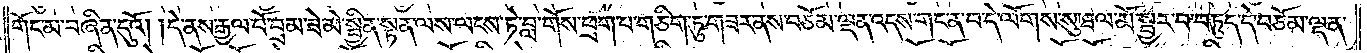གོང་མ་བཞིན་དུའོ། །དེ་ནས་རྒྱལ་པོ་བྲམ་ཟེ་མེ་སྦྱིན་སྟན་ལས་ལངས་ཏེ་བླ་གོས་ཕྲག་པ་གཅིག་ཏུ་གཟར་ནས་བཅོམ་ལྡན་འདས་གང་ན་བ་དེ་ལོགས་སུ་ཐལ་མོ་སྦྱར་བ་བཏུད་དེ་བཅོམ་ལྡ་
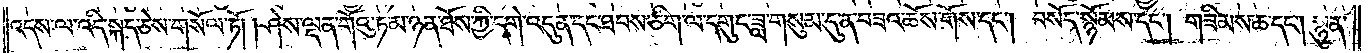འདས་ལ་འདི་སྐད་ཅེས་གསོལ་ཏོ། །ཤེས་ལྡན་གོའུ་ཏ་མ་ཉན་ཐོས་ཀྱི་དགེ་འདུན་དང་ཐབས་ཅིག་ལ་དགུང་ཟླ་གསུམ་དུ་ན་བཟའ་ཆོས་གོས་དང༌། བསོད་སྙོམས་དང༌། གཟིམས་ཆ་དང༌། སྙུན་
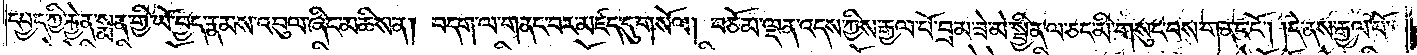དཔྱད་ཀྱི་རྐྱེན་སྨན་གྱི་ཡོ་བྱད་རྣམས་འབུལ་ཞིང་མཆིས་ན། བདག་ལ་གནང་བར་མཛད་དུ་གསོལ། བཅོམ་ལྡན་འདས་ཀྱིས་རྒྱལ་པོ་བྲམ་ཟེ་མེ་སྦྱིན་ལ་ཅང་མི་གསུང་བས་གནང་ངོ༌། །དེ་ནས་རྒྱལ་པོ་
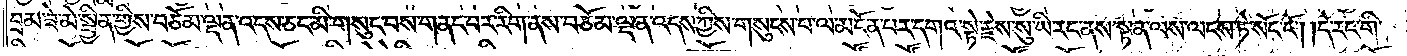བྲམ་ཟེ་མེ་སྦྱིན་གྱིས་བཅོམ་ལྡན་འདས་ཅང་མི་གསུང་བས་གནང་བར་རིག་ནས་བཅོམ་ལྡན་འདས་ཀྱིས་གསུངས་པ་ལ་མངོན་པར་དགའ་སྟེ་རྗེས་སུ་ཡི་རང་ནས་སྟན་ལས་ལངས་ཏེ་སོང་ངོ༌། །དེ་རང་གི་
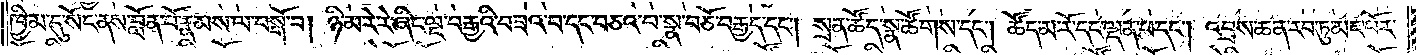ཁྱིམ་དུ་སོང་ནས་བློན་པོ་རྣམས་ལ་བསྒོ་བ། ཉི་མ་རེ་རེ་ཞིང་ལྔ་བརྒྱའི་བཟའ་བ་དང་བཅའ་བ་སྣ་བཅོ་བརྒྱད་དང༌། སྲན་ཚོད་སྣ་ཚོགས་དང༌། ཚོད་མ་རོ་དང་ལྡན་པ་དང༌། འབྲས་ཆན་རབ་ཏུ་མང་པོར་
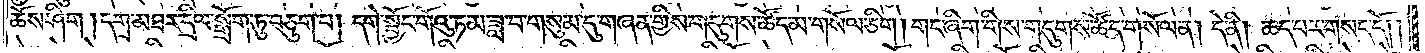ཆོས་ཤིག །དགྲ་མཐར་དྲིལ་སྒྲོག་ཏུ་བཅུག་པ། དགེ་སྦྱོང་གོའུ་ཏ་མ་ཟླ་བ་གསུམ་དུ་གཞན་གྱིས་གདུགས་ཚོད་མ་གསོལ་ཅིག །གང་ཞིག་གིས་གདུགས་ཚོད་གསོལ་ན། དེ་ནི། ཆད་པར་གསད་དོ། །
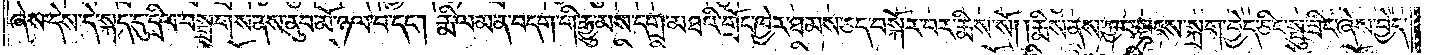ཞེས་དེས་དེ་སྐད་དུ་དྲིལ་བསྒྲགས་ནས་ནུབ་མོ་ཉལ་བ་དང༌། རྨི་ལམ་ན་བདག་གི་རྒྱུ་མས་དགྲ་མཐའི་གྲོང་ཁྱེར་ཐམས་ཅད་བསྐོར་བར་རྨིས་སོ། །རྨིས་ནས་ཀྱང་སྔངས་སྐྲག་བྱེད་ཅིང་སྤུ་ཟིང་ཞེས་བྱེད་
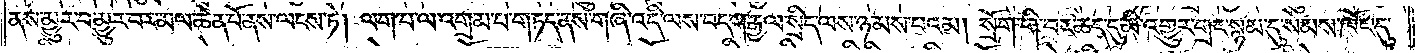ནས་མྱུར་བ་མྱུར་བར་མལ་ཆེན་པོ་ནས་ལངས་ཏེ། ལག་པ་ལ་འགྲམ་པ་གཏད་ནས་གཞི་འདི་ལས་བདག་རྒྱལ་སྲིད་ལས་ཉམས་པའམ། སྲོག་གི་བར་ཆད་དུ་མི་འགྱུར་གྲང་སྙམ་དུ་སེམས་ཁོང་དུ་
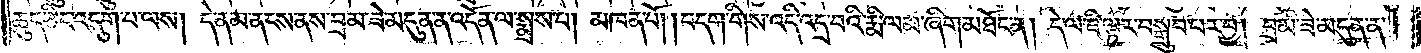ཆུད་ཅིང་འདུག་པ་ལས། དེ་ནམ་ནངས་ནས་བྲམ་ཟེ་མདུན་ན་འདོན་ལ་སྨྲས་པ། མཁན་པོ། །བདག་གིས་འདི་འདྲ་བའི་རྨི་ལམ་ཞིག་མཐོང་ན། དེ་ལ་ཇི་ལྟར་བསྒྲུབ་པར་བྱ། བྲམ་ཟེ་མདུན་ན་
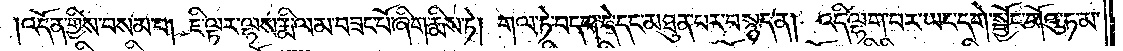འདོན་གྱིས་བསམ་པ། ཇི་ལྟར་ལྷས་རྨི་ལམ་བཟང་པོ་ཞིག་རྨིས་ཏེ། གལ་ཏེ་བདག་དེ་དང་མཐུན་པར་བསྙད་ན། འདི་ལྷག་པར་ཡང་དགེ་སྦྱོང་གོའུ་ཏ་མ་
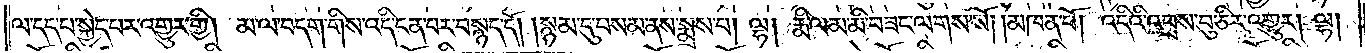ལ་དད་པ་སྐྱེད་པར་འགྱུར་གྱི། མ་ལ་བདག་གིས་འདི་ངན་པར་བསྙད་དོ། །སྙམ་དུ་བསམ་ནས་སྨྲས་པ། ལྷ། རྨི་ལམ་མི་བཟང་ལགས་སོ། །མཁན་པོ། འདིའི་འབྲས་བུ་ཅིར་འགྱུར། ལྷ།
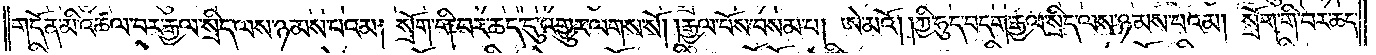གདོན་མི་འཚལ་བར་རྒྱལ་སྲིད་ལས་ཉམས་པའམ། སྲོག་གི་བར་ཆད་དུ་འགྱུར་ལགས་སོ། །རྒྱལ་པོས་བསམ་པ། ཨེ་མའོ། །ཀྱི་ཧུད་བདག་རྒྱལ་སྲིད་ལས་ཉམས་པའམ། སྲོག་གི་བར་ཆད་
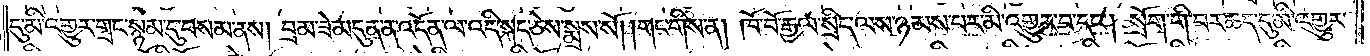དུ་མི་འགྱུར་གྲང་སྙམ་དུ་བསམ་ནས། བྲམ་ཟེ་མདུན་ན་འདོན་ལ་འདི་སྐད་ཅེས་སྨྲས་སོ། །གང་གིས་ན། ཁོ་བོ་རྒྱལ་སྲིད་ལས་ཉམས་པར་མི་འགྱུར་བ་དང༌། སྲོག་གི་བར་ཆད་དུ་མི་འགྱུར་
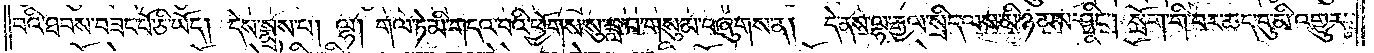བའི་ཐབས་བཟང་པོ་ཅི་ཡོད། དེས་སྨྲས་པ། ལྷ། གལ་ཏེ་མི་གདའ་བའི་ཕྱོགས་སུ་ཟླ་བ་གསུམ་བཞུགས་ན། དེ་ནས་ལྷ་རྒྱལ་སྲིད་ལས་མི་ཉམས་ཤིང༌། སྲོག་གི་བར་ཆད་དུ་མི་འགྱུར་
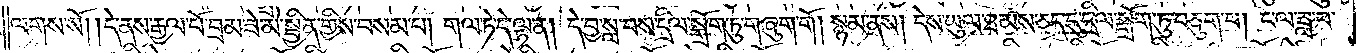ལགས་སོ། །དེ་ནས་རྒྱལ་པོ་བྲམ་ཟེ་མེ་སྦྱིན་གྱིས་བསམ་པ། གལ་ཏེ་དེ་ལྟ་ན། དེ་བྱ་སླ་བས་དྲིལ་སྒྲོག་ཏུ་གཞུག་གོ། སྙམ་ནས། དེས་ཡུལ་ཐམས་ཅད་དུ་དྲིལ་སྒྲོག་ཏུ་བཅུག་པ། ང་ལ་ཟླ་བ་
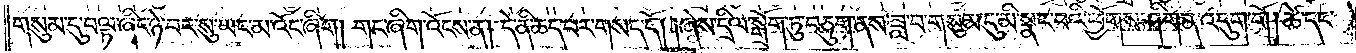གསུམ་དུ་བལྟ་ཞིང་ཉེ་བར་སུ་ཡང་མ་འོང་ཞིག། གང་ཞིག་འོངས་ན། དེ་ནི་ཆད་པར་གསད་དོ། །ཞེས་དྲིལ་སྒྲོག་ཏུ་བཅུག་ནས་ཟླ་བ་གསུམ་དུ་མི་སྣང་བའི་ཕྱོགས་ཤིག་ན་འདུག་གོ། ཚེ་དང་
